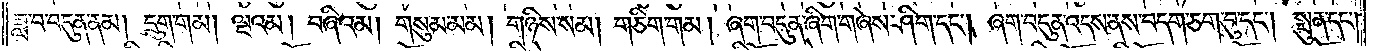ཟླ་བ་བདུན་ནམ། དྲུག་གམ། ལྔའམ། བཞིའམ། གསུམ་མམ། གཉིས་སམ། གཅིག་གམ། ཞག་བདུན་ཞིག་གཞེས་ཤིག་དང༌། ཞག་བདུན་འདས་ནས་བདག་ཅག་བུ་དང༌། སྤུན་དང༌།
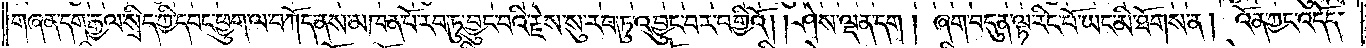གཞན་དག་རྒྱལ་སྲིད་ཀྱི་དབང་ཕྱུག་ལ་བཀོད་ནས་མཁན་པོ་རབ་ཏུ་བྱུང་བའི་རྗེས་སུ་རབ་ཏུ་འབྱུང་བར་བགྱིའོ། །ཤེས་ལྡན་དག །ཞག་བདུན་ལྟ་རིང་པོ་ཡང་མི་ཐོགས་ན། འོན་ཀྱང་འདོད་
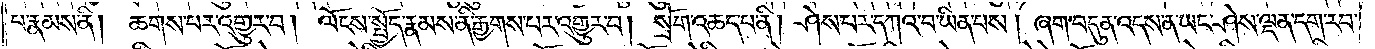པ་རྣམས་ནི། ཆགས་པར་འགྱུར་བ། ལོངས་སྤྱོད་རྣམས་ནི་རྒྱགས་པར་འགྱུར་བ། སྲོག་འཆད་པ་ནི། ཤེས་པར་དཀའ་བ་ཡིན་པས། ཞག་བདུན་འདས་ན་ཡང་ཤེས་ལྡན་དག་རབ་
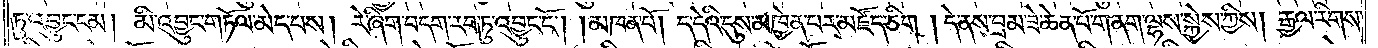ཏུ་འབྱུང་ངམ། མི་འབྱུང་གཏོལ་མེད་པས། རེ་ཞིག་བདག་རབ་ཏུ་འབྱུང་ངོ༌། །མཁན་པོ། ད་དེའི་དུས་མཁྱེན་པར་མཛོད་ཅིག། དེ་ནས་བྲམ་ཟེ་ཆེན་པོ་གནག་ལྷས་སྐྱེས་ཀྱིས། རྒྱལ་རིགས་
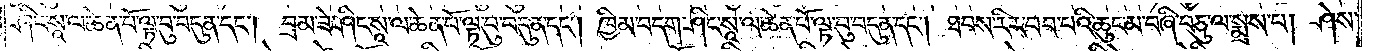ཤིང་སཱ་ལ་ཆེན་པོ་ལྟ་བུ་བདུན་དང༌། བྲམ་ཟེ་ཤིང་སཱ་ལ་ཆེན་པོ་ལྟ་བུ་བདུན་དང༌། ཁྱིམ་བདག་ཤིང་སཱ་ལ་ཆེན་པོ་ལྟ་བུ་བདུན་དང༌། ཐབས་རིར་བབ་པའི་ཆུང་མ་བཞི་བཅུ་ལ་སྨྲས་པ། ཤེས་
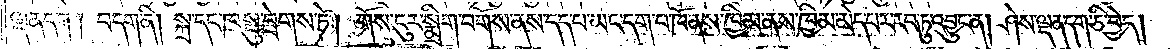ལྡན་དག །བདག་ནི། སྐྲ་དང་ཁ་སྤུ་བྲེགས་ཏེ། གོས་ངུར་སྨྲིག་བགོས་ནས་དད་པ་ཡང་དག་པ་ཁོ་ནས་ཁྱིམ་ནས་ཁྱིམ་མེད་པར་རབ་ཏུ་འབྱུང་ན། ཤེས་ལྡན་དག་ཅི་བྱེད།
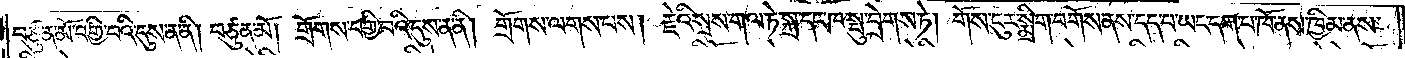བཙུན་མོ་བགྱི་བའི་དུས་ན་ནི། བཙུན་མོ། གྲོགས་བགྱི་བའི་དུས་ན་ནི། གྲོགས་ལགས་པས། རྗེའི་སྲས་གལ་ཏེ་སྐྲ་དང་ཁ་སྤུ་བྲེགས་ཏེ། གོས་ངུར་སྨྲིག་བགོས་ནས་དད་པ་ཡང་དག་པ་ཁོ་ནས་ཁྱིམ་ནས་
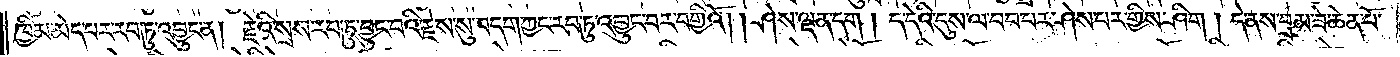ཁྱིམ་མེད་པར་རབ་ཏུ་འབྱུང་ན། རྗེའི་སྲས་རབ་ཏུ་བྱུང་བའི་རྗེས་སུ་བདག་ཀྱང་རབ་ཏུ་འབྱུང་བར་བགྱིའོ། །ཤེས་ལྡན་དག །ད་དེའི་དུས་ལ་བབ་པར་ཤེས་པར་གྱིས་ཤིག །དེ་ནས་བྲམ་ཟེ་ཆེན་པོ་
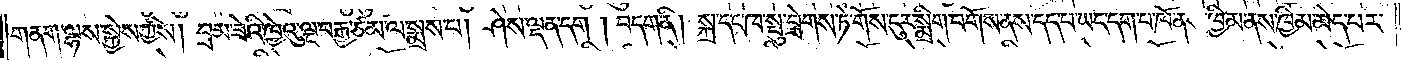གནག་ལྷས་སྐྱེས་ཀྱིས། བྲམ་ཟེའི་ཁྱེའུ་ལྔ་བརྒྱ་ཙམ་ལ་སྨྲས་པ། ཤེས་ལྡན་དག །བདག་ནི། སྐྲ་དང་ཁ་སྤུ་བྲེགས་ཏེ་གོས་ངུར་སྨྲིག་བགོས་ནས་དད་པ་ཡང་དག་པ་ཁོ་ནས་ཁྱིམ་ནས་ཁྱིམ་མེད་པར་
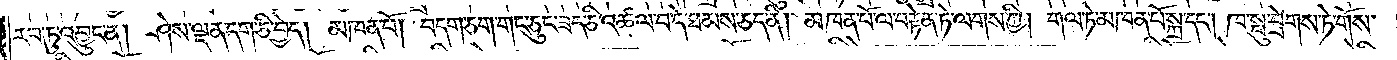རབ་ཏུ་འབྱུང་ན། ཤེས་ལྡན་དག་ཅི་བྱེད། མཁན་པོ། བདག་ཅག་གང་ཅུང་ཟད་ཅི་འཚལ་བ་དེ་ཐམས་ཅད་ནི། མཁན་པོ་ལ་བརྟེན་ཏེ་ལགས་ཀྱི། གལ་ཏེ་མཁན་པོ་སྐྲ་དང༌། ཁ་སྤུ་བྲེགས་ཏེ་གོས་
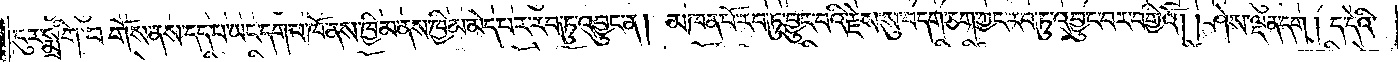ངུར་སྨྲིག་བགོས་ནས་དད་པ་ཡང་དག་པ་ཁོ་ནས་ཁྱིམ་ནས་ཁྱིམ་མེད་པར་རབ་ཏུ་འབྱུང་ན། མཁན་པོ་རབ་ཏུ་བྱུང་བའི་རྗེས་སུ་བདག་ཅག་ཀྱང་རབ་ཏུ་འབྱུང་བར་བགྱིའོ། །ཤེས་ལྡན་དག །ད་དེའི་
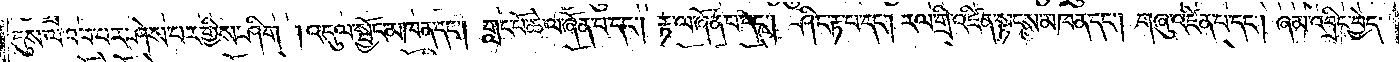དུས་ལ་བབ་པར་ཤེས་པར་གྱིས་ཤིག །འདུལ་སྦྱོར་མཁན་དང༌། གླང་པོ་ཆེ་ལ་ཞོན་པ་དང༌། རྟ་ལ་ཞོན་པ་དང༌། ཤིང་རྟ་པ་དང༌། རལ་གྲི་འཛིན་སྟངས་མཁན་དང༌། གཞུ་འཛིན་པ་དང༌། ཞམ་འབྲིང་བྱེད་
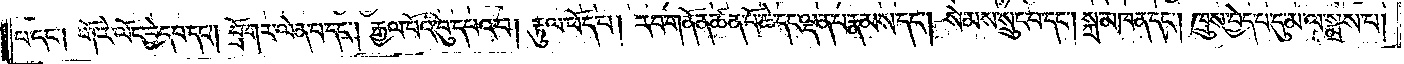པ་དང༌། གོ་རེ་ལོང་བྱེད་པ་དང༌། བྲོ་གར་ལེན་པ་དང༌། རྒྱལ་པོའི་བུ་དཔའ་བ། རྟུལ་ཕོད་པ། རབ་གནོན་ཚན་པོ་ཆེ་དང་ལྡན་པ་རྣམས་དང༌། སེམས་སྲུང་བ་དང༌། སྐྲ་མཁན་དང༌། ཁྲུས་བྱེད་པ་དུ་མ་ལ་སྨྲས་པ།
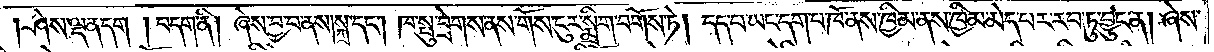ཤེས་ལྡན་དང༌། །བདག་ནི། ཞེས་བྱ་བ་ནས། སྐྲ་དང༌། ཁ་སྤུ་བྲེགས་ནས་གོས་ངུར་སྨྲིག་བགོས་ཏེ། དད་པ་ཡང་དག་པ་ཁོ་ནས་ཁྱིམ་ནས་ཁྱིམ་མེད་པར་རབ་ཏུ་བྱུང་ན། ཞེས་
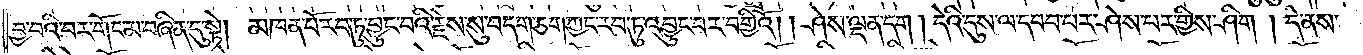བྱ་བའི་བར་གོང་མ་བཞིན་དུ་སྟེ། མཁན་པོ་རབ་ཏུ་བྱུང་བའི་རྗེས་སུ་བདག་ཅག་ཀྱང་རབ་ཏུ་འབྱུང་བར་བགྱིའོ། །ཤེས་ལྡན་དག །དེའི་དུས་ལ་དབབ་པར་ཤེས་པར་གྱིས་ཤིག །དེ་ནས་
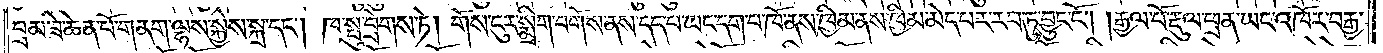བྲམ་ཟེ་ཆེན་པོ་གནག་ལྷས་སྐྱེས་སྐྲ་དང༌། ཁ་སྤུ་བྲེགས་ཏེ། གོས་ངུར་སྨིག་བགོས་ནས་དད་པ་ཡང་དག་བ་ཁོ་ན་ཁྱིམ་ནས་ཁྱིམ་མེད་པར་རབ་ཏུ་བྱུང་ངོ༌། །རྒྱལ་པོ་རྡུལ་ཕྲན་ཡང་འཁོར་བརྒྱ་
